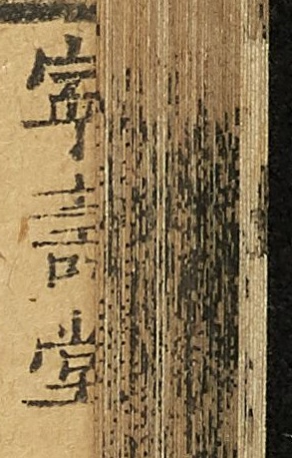寧壽堂
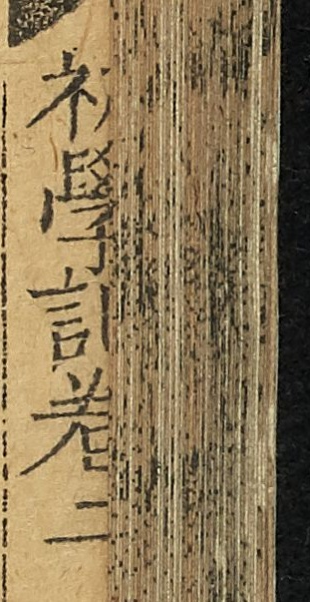初學記卷二
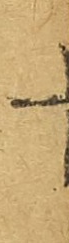十
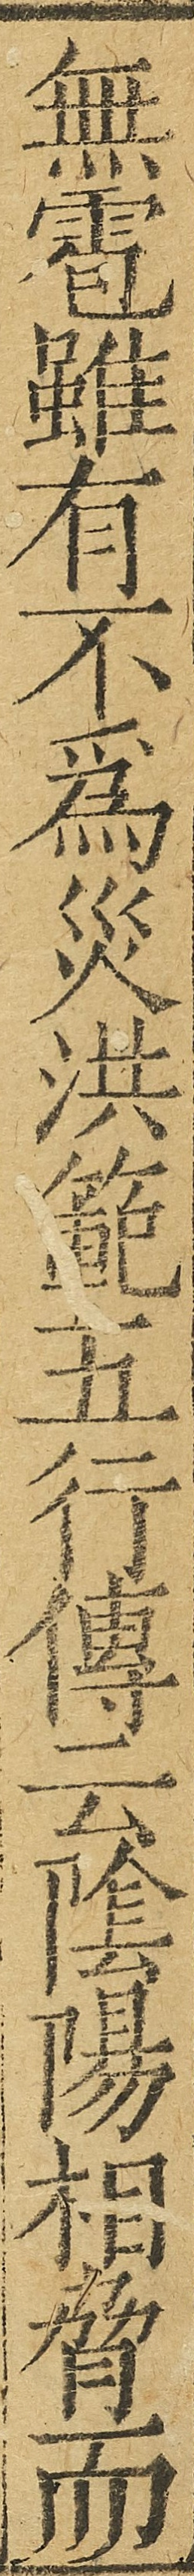無雹雖有不爲災洪範五行傳云陰陽相脅而
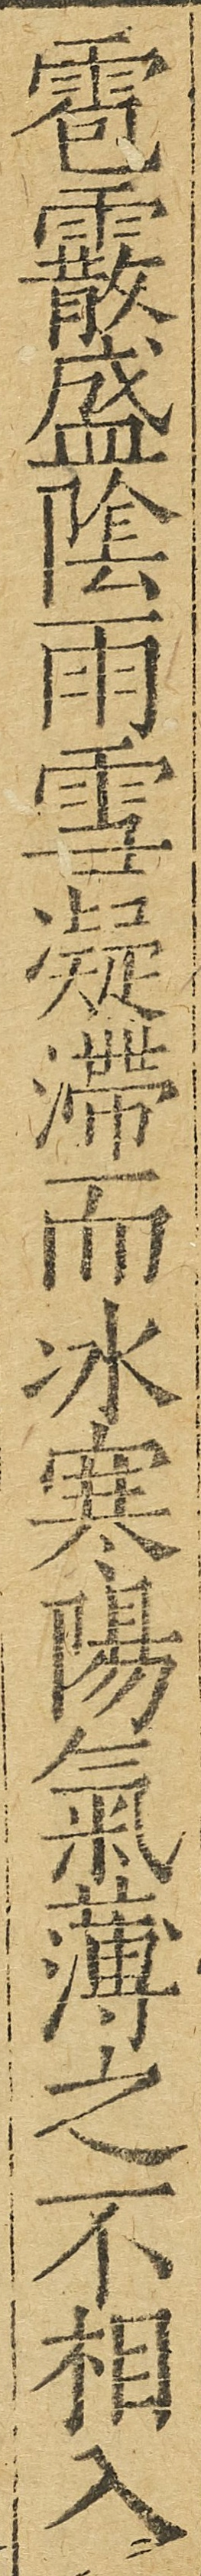雹霰盛陰雨雪凝滯而冰寒陽氣薄之不相入
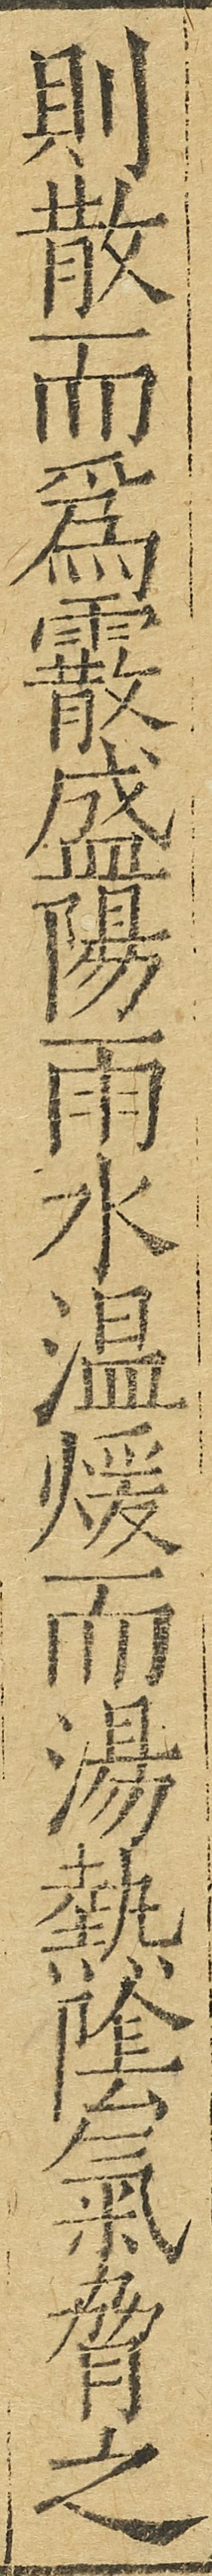則散而爲霰盛陽雨水溫煖而湯熱陰氣脅之
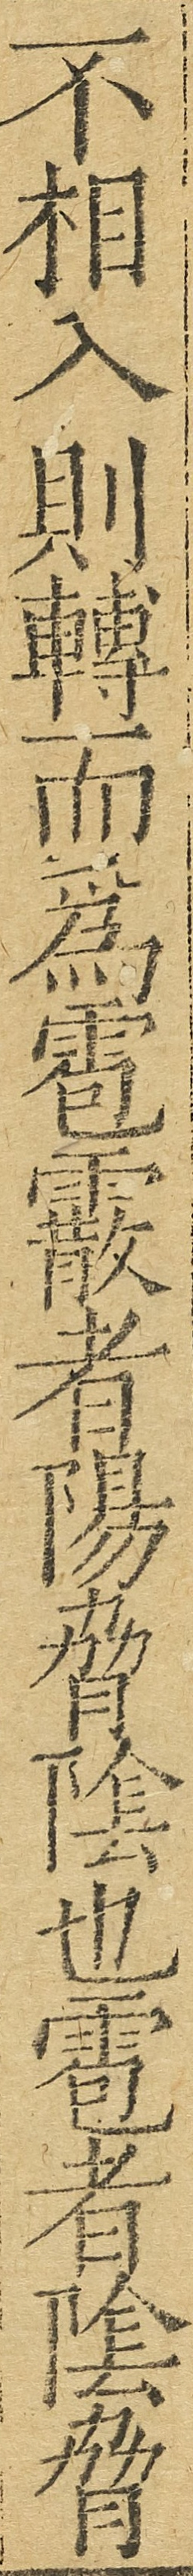不相入則轉而爲雹霰者陽脅陰也雹者陰脅
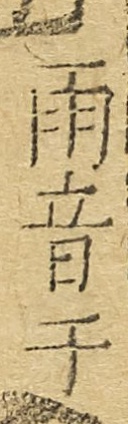雨音于
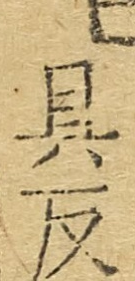具反
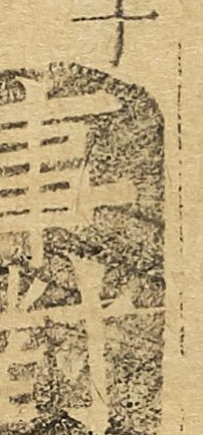事對
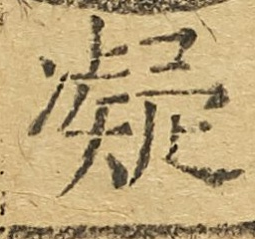凝
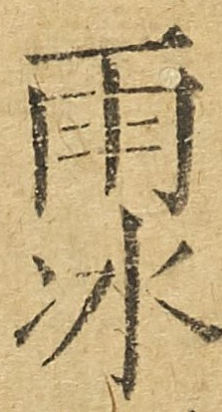雨冰
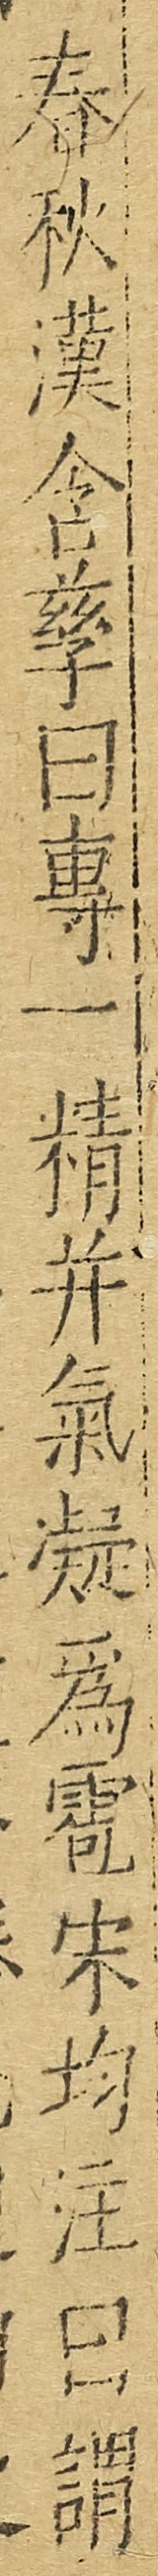春秋漢含孳曰專一精幷氣凝爲雹宋均注曰謂
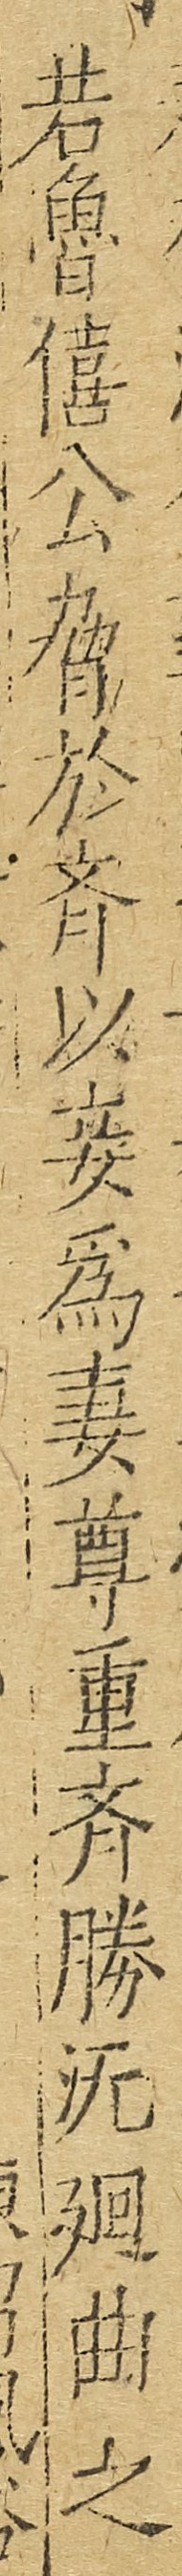若魯僖公脅於齊以妾爲妻尊重齊媵無迴曲之
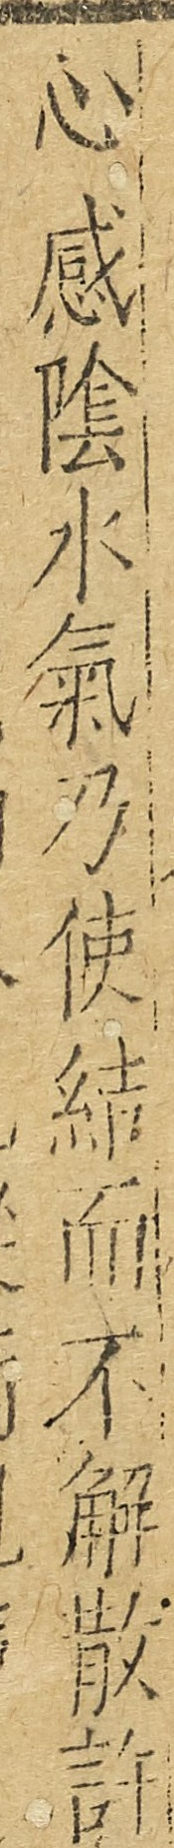心感陰水氣乃使結而不解散許
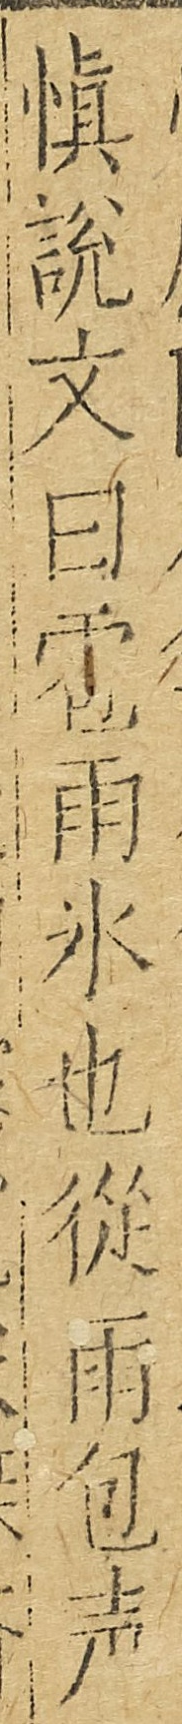愼說文曰雹雨冰也從雨包聲
